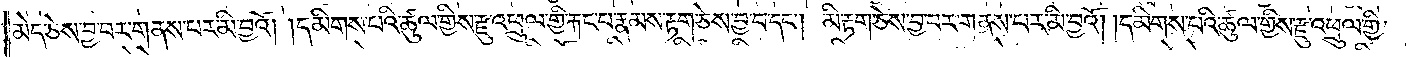མེད་ཅེས་བྱ་བར་གནས་པར་མི་བྱའོ། །དམིགས་པའི་ཚུལ་གྱིས་རྫུ་འཕྲུལ་གྱི་རྐང་པ་རྣམས་རྟག་ཅེས་བྱ་བ་དང༌། མི་རྟག་ཅེས་བྱ་བར་གནས་པར་མི་བྱའོ། །དམིགས་པའི་ཚུལ་གྱིས་རྫུ་འཕྲུལ་གྱི་
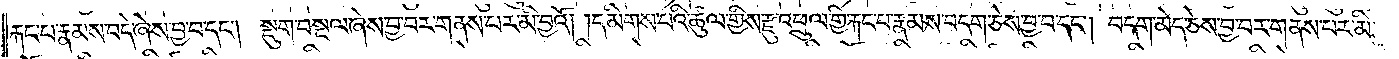རྐང་པ་རྣམས་བདེ་ཞེས་བྱ་བ་དང༌། སྡུག་བསྔལ་ཞེས་བྱ་བར་གནས་པར་མི་བྱའོ། །དམིགས་པའི་ཚུལ་གྱིས་རྫུ་འཕྲུལ་གྱི་རྐང་པ་རྣམས་བདག་ཅེས་བྱ་བ་དང༌། བདག་མེད་ཅེས་བྱ་བར་གནས་པར་མི་
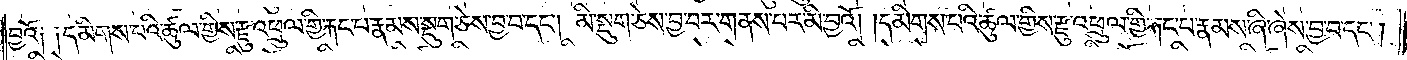བྱའོ༏ ༏དམིགས་པའི་ཚུལ་གྱིས་རྫུ་འཕྲུལ་གྱི་རྐང་པ་རྣམས་སྡུག་ཅེས་བྱ་བ་དང༌། མི་སྡུག་ཅེས་བྱ་བར་གནས་པར་མི་བྱའོ། །དམིགས་པའི་ཚུལ་གྱིས་རྫུ་འཕྲུལ་གྱི་རྐང་པ་རྣམས་ཞི་ཞེས་བྱ་བ་དང༌།
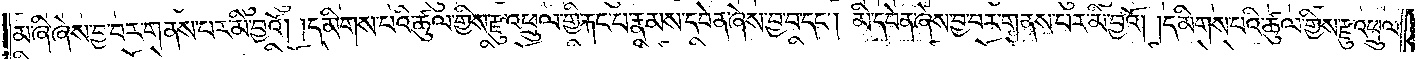མ་ཞི་ཞེས་བྱ་བར་གནས་པར་མི་བྱའོ། །དམིགས་པའི་ཚུལ་གྱིས་རྫུ་འཕྲུལ་གྱི་རྐང་པ་རྣམས་དབེན་ཞེས་བྱ་བ་དང༌། མི་དབེན་ཞེས་བྱ་བར་གནས་པར་མི་བྱའོ། །དམིགས་པའི་ཚུལ་གྱིས་རྫུ་འཕྲུལ་
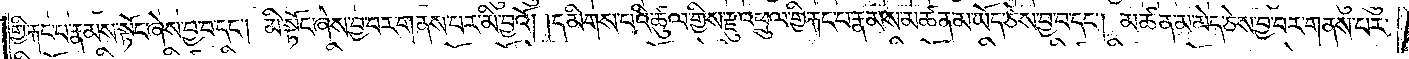གྱི་རྐང་པ་རྣམས་སྟོང་ཞེས་བྱ་བ་དང༌། མི་སྟོང་ཞེས་བྱ་བར་གནས་པར་མི་བྱའོ། །དམིགས་པའི་ཚུལ་གྱིས་རྫུ་འཕྲུལ་གྱི་རྐང་པ་རྣམས་མཚན་མ་ཡོད་ཅེས་བྱ་བ་དང༌། མཚན་མ་མེད་ཅེས་བྱ་བར་གནས་པར་
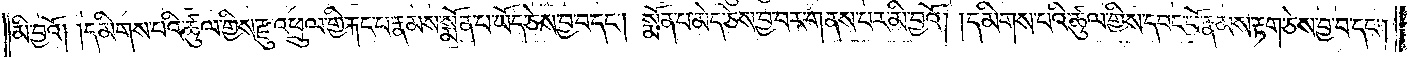མི་བྱའོ། །དམིགས་པའི་ཚུལ་གྱིས་རྫུ་འཕྲུལ་གྱི་རྐང་པ་རྣམས་སྨོན་པ་ཡོད་ཅེས་བྱ་བ་དང༌། སྨོན་པ་མེད་ཅེས་བྱ་བར་གནས་པར་མི་བྱའོ། །དམིགས་པའི་ཚུལ་གྱིས་དབང་པོ་རྣམས་རྟག་ཅེས་བྱ་བ་དང་༑
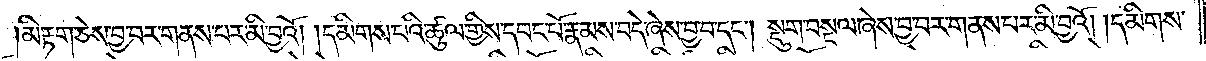མི་རྟག་ཅེས་བྱ་བར་གནས་པར་མི་བྱའོ། །དམིགས་པའི་ཚུལ་གྱིས་དབང་པོ་རྣམས་བདེ་ཞེས་བྱ་བ་དང༌། སྡུག་བསྔལ་ཞེས་བྱ་བར་གནས་པར་མི་བྱའོ། །དམིགས་
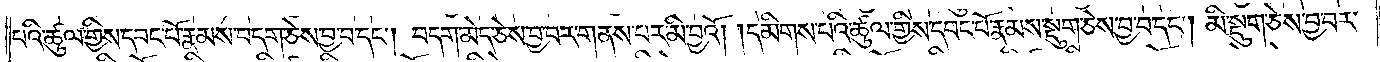པའི་ཚུལ་གྱིས་དབང་པོ་རྣམས་བདག་ཅེས་བྱ་བ་དང༌། བདག་མེད་ཅེས་བྱ་བར་གནས་པར་མི་བྱའོ། །དམིགས་པའི་ཚུལ་གྱིས་དབང་པོ་རྣམས་སྡུག་ཅེས་བྱ་བ་དང༌། མི་སྡུག་ཅེས་བྱ་བར་
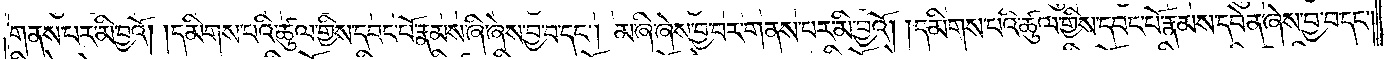གནས་པར་མི་བྱའོ། །དམིགས་པའི་ཚུལ་གྱིས་དབང་པོ་རྣམས་ཞི་ཞེས་བྱ་བ་དང༌། མ་ཞི་ཞེས་བྱ་བར་གནས་པར་མི་བྱའོ། །དམིགས་པའི་ཚུལ་གྱིས་དབང་པོ་རྣམས་དབེན་ཞེས་བྱ་བ་དང༌།
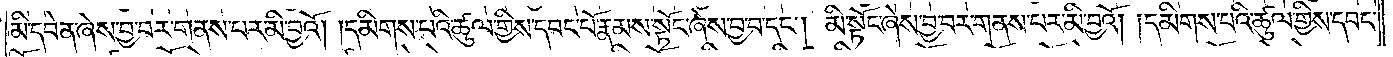མི་དབེན་ཞེས་བྱ་བར་གནས་པར་མི་བྱའོ། དམིགས་པའི་ཚུལ་གྱིས་དབང་པོ་རྣམས་སྟོང་ཞེས་བྱ་བ་དང༌། མི་སྟོང་ཞེས་བྱ་བར་གནས་པར་མི་བྱའོ། །དམིགས་པའི་ཚུལ་གྱིས་དབང་
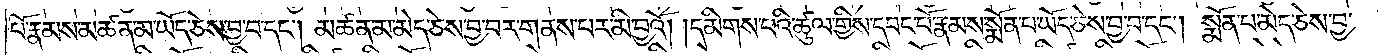པོ་རྣམས་མཚན་མ་ཡོད་ཅེས་བྱ་བ་དང༌། མཚན་མ་མེད་ཅེས་བྱ་བར་གནས་པར་མི་བྱའོ། །དམིགས་པའི་ཚུལ་གྱིས་དབང་པོ་རྣམས་སྨོན་པ་ཡོད་ཅེས་བྱ་བ་དང༌། སྨོན་པ་མེད་ཅེས་བྱ་
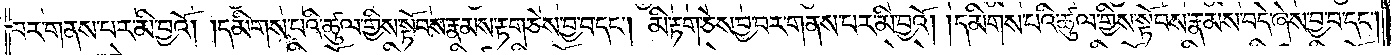བར་གནས་པར་མི་བྱའོ། །དམིགས་པའི་ཚུལ་གྱིས་སྟོབས་རྣམས་རྟག་ཅེས་བྱ་བ་དང༌། མི་རྟག་ཅེས་བྱ་བར་གནས་པར་མི་བྱའོ། །དམིགས་པའི་ཚུལ་གྱིས་སྟོབས་རྣམས་བདེ་ཞེས་བྱ་བ་དང༌།
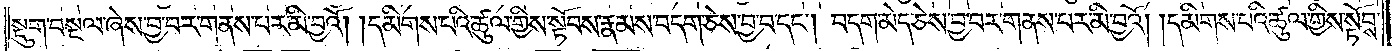སྡུག་བསྔལ་ཞེས་བྱ་བར་གནས་པར་མི་བྱའོ། །དམིགས་པའི་ཚུལ་གྱིས་སྟོབས་རྣམས་བདག་ཅེས་བྱ་བ་དང༌། བདག་མེད་ཅེས་བྱ་བར་གནས་པར་མི་བྱའོ། །དམིགས་པའི་ཚུལ་གྱིས་སྟོབས་
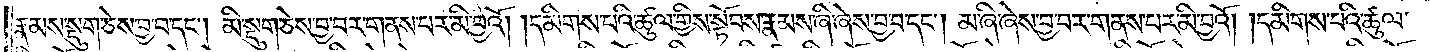རྣམས་སྡུག་ཅེས་བྱ་བ་དང༌། མི་སྡུག་ཅེས་བྱ་བར་གནས་པར་མི་བྱའོ། །དམིགས་པའི་ཚུལ་གྱིས་སྟོབས་རྣམས་ཞི་ཞེས་བྱ་བ་དང༌། མ་ཞི་ཞེས་བྱ་བར་གནས་པར་མི་བྱའོ། །དམིགས་པའི་ཚུལ་
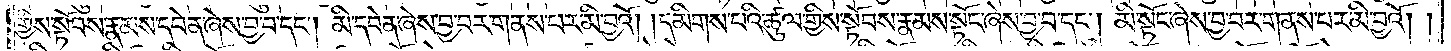གྱིས་སྟོབས་རྣམས་དབེན་ཞེས་བྱ་བ་དང༌། མི་དབེན་ཞེས་བྱ་བར་གནས་པར་མི་བྱའོ། །དམིགས་པའི་ཚུལ་གྱིས་སྟོབས་རྣམས་སྟོང་ཞེས་བྱ་བ་དང༌། མི་སྟོང་ཞེས་བྱ་བར་གནས་པར་མི་བྱའོ། །
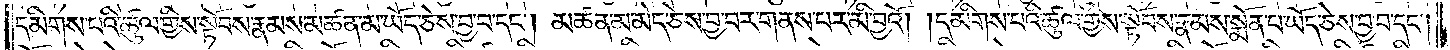དམིགས་པའི་ཚུལ་གྱིས་སྟོབས་རྣམས་མཚན་མ་ཡོད་ཅེས་བྱ་བ་དང༌། མཚན་མ་མེད་ཅེས་བྱ་བར་གནས་པར་མི་བྱའོ། །དམིགས་པའི་ཚུལ་གྱིས་སྟོབས་རྣམས་སྨོན་པ་ཡོད་ཅེས་བྱ་བ་དང༌།
